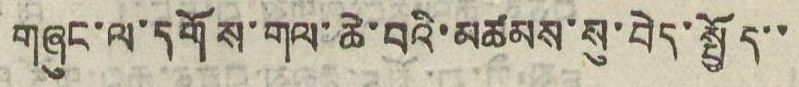གཞུང་ལ་དགོས་གལ་ཆེ་བའི་མཚམས་སུ་བེད་སྤྱོད་་
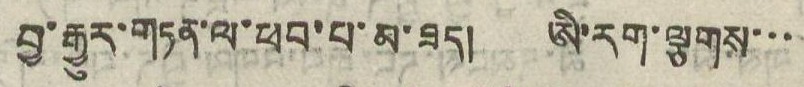བྱ་རྒྱུར་གཏན་ལ་ཕབ་པ་མ་ཟད། ཨི་རག་ལྕགས་་་
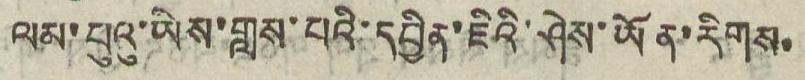ལམ་པུའུ་ཡིས་གླས་པའི་དབྱིན་ཇིའི་ཤེས་ཡོན་རིགས་
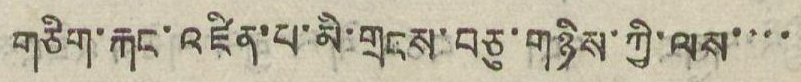གཅིག་རྐང་འཛིན་པ་མི་གྲངས་བཅུ་གཉིས་ཀྱི་ལས་་་་
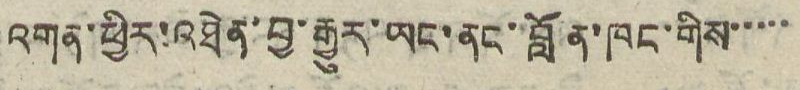འགན་ཕྱིར་འཐེན་བྱ་རྒྱུར་ཡང་ནང་བློན་ཁང་གིས་་་་་
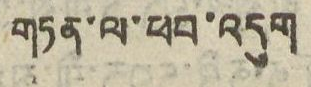གཏན་ལ་ཕབ་འདུག
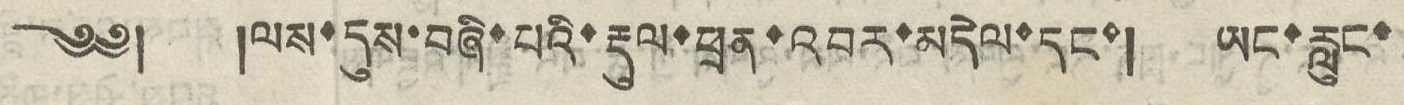༄༅། །ལས་དུས་བཞི་པའི་རྡུལ་ཕྲན་འབར་མདེལ་དང་། ཡང་རླུང་
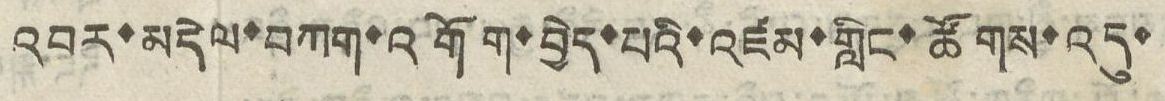འབར་མདེལ་བཀག་འགོག་བྱེད་པའི་འཛམ་གླིང་ཚོགས་འདུ་
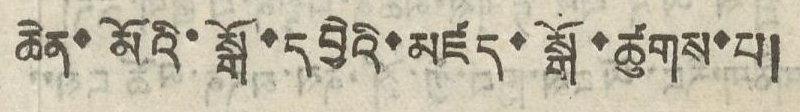ཆེན་མོའི་སྒོ་དབྱེའི་མཛད་སྒོ་ཚུགས་པ།
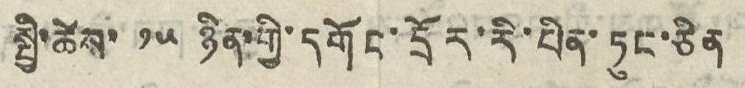སྤྱི་ཚེས་ ༡༥ ཉིན་གྱི་དགོང་དྲོར་རི་པིན་ཏུང་ཅིན
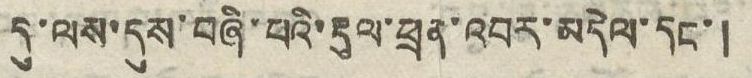དུ་ལས་དུས་བཞི་པའི་རྡུལ་ཕྲན་འབར་མདེལ་དང་།
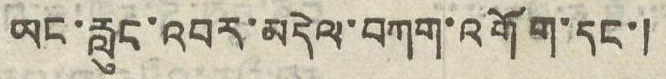ཡང་རླུང་འབར་མདེལ་བཀག་འགོག་དང་།
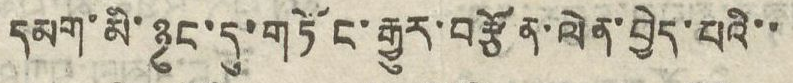དམག་མི་ཉུང་དུ་གཏོང་རྒྱུར་བརྩོན་ལེན་བྱེད་པའི་་
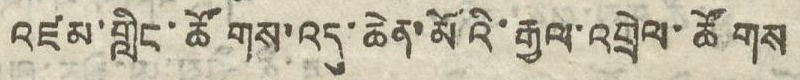འཛམ་གླིང་ཚོགས་འདུ་ཆེན་མོའི་རྒྱལ་འབྲེལ་ཚོགས
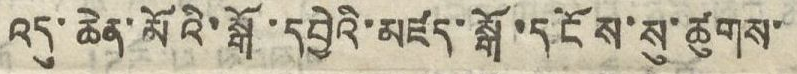འདུ་ཆེན་མོའི་སྒོ་དབྱེའི་མཛད་སྒོ་དངོས་སུ་ཚུགས་
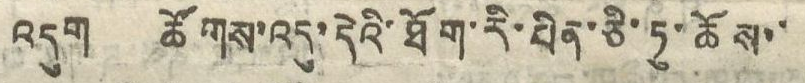འདུག ཚོགས་འདུ་དེའི་ཐོག་རི་པིན་ཅི་ཏུ་ཆོས་་
